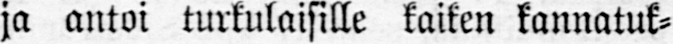ja antoi turkulaisille kaiken kannatuk-
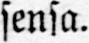sensa.
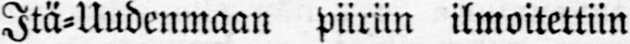Itä-Uudenmaan piiriin ilmoitettiin
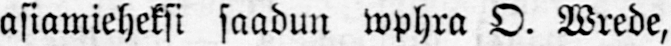asiamieheksi saadun wphra O. Wrede,
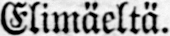Elimäeltä.
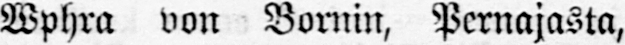Wphra von Bornin, Pernajasta,
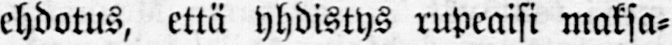ehdotus, että yhdistys rupeaisi maksa-
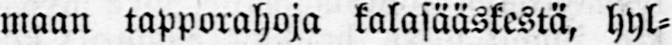maan tapporahoja kalasääskestä, hyl-
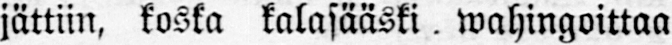jättiin, koska kalasääski wahingoittaa
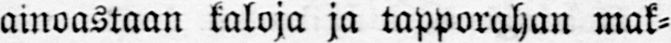ainoastaan kaloja ja tapporahan mak-
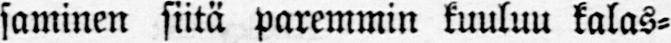saminen siitä paremmin kuuluu kalas-
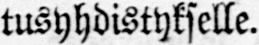tusyhdistykselle.
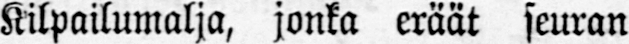Kilpailumalja, jonka eräät seuran
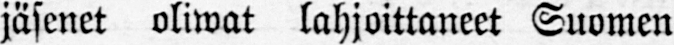jäsenet oliwat lahjoittaneet Suomen
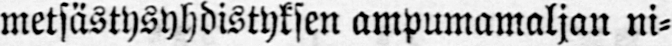metsästysyhdistyksen ampumamaljan ni-
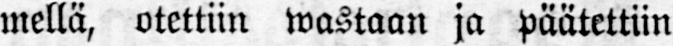mellä, otettiin wastaan ja päätettiin
